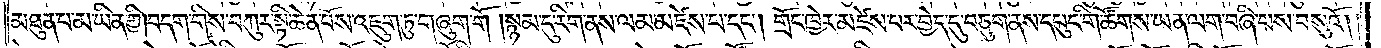མཐུན་པ་མ་ཡིན་གྱི།བདག་གིས་བཀུར་སྟི་ཆེན་པོས་འཇུག་ཏུ་གཞུག་གོ །སྙམ་དུ་རིག་ནས་ལམ་མཛེས་པ་དང༌། གྲོང་ཁྱེར་མཛེས་པར་བྱེད་དུ་བཅུག་ནས་དཔུང་གི་ཚོགས་ཡན་ལག་བཞི་པས་བསུའོ། །
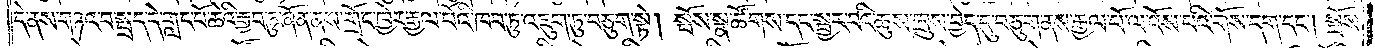དེ་ནས་གཉའ་བ་སྤྲད་དེ་གླང་པོ་ཆེའི་རྒྱབ་ཏུ་ཞོན་ནས་གྲོང་ཁྱེར་རྒྱལ་པོའི་ཁབ་ཏུ་འཇུག་ཏུ་བཅུག་སྟེ། སྤོས་སྣ་ཚོགས་དང་སྦྱར་བའི་ཆུས་ཁྲུས་བྱེད་དུ་བཅུག་ནས་རྒྱལ་པོ་ལ་འོས་པའི་གོས་དག་དང༌། སྤོས་
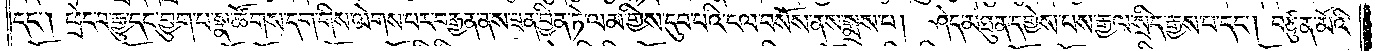དང༌། ཕྲེང་བ་རྒྱུ་དང་བྱུག་པ་སྣ་ཚོགས་དག་གིས་ལེགས་པར་བརྒྱན་ནས་ཟན་བྱིན་ཏེ་ལམ་གྱིས་དུབ་པའི་ངལ་བསོས་ནས་སྨྲས་པ། ཤེད་མཐུན་དགྱེས་པས་རྒྱལ་སྲིད་རྒྱས་པ་དང༌། བཙུན་མོའི་
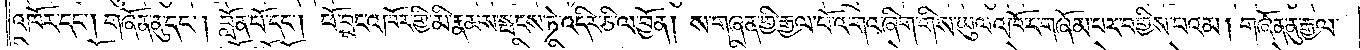འཁོར་དང༌། གཞོན་ནུ་དང༌། བློན་པོ་དང༌། ཕོ་བྲང་འཁོར་གྱི་མི་རྣམས་སྤངས་ཏེ་འདིར་ཅི་ལ་བྱོན། ས་གཞན་གྱི་རྒྱལ་པོ་འགའ་ཞིག་གིས་ཡུལ་འཁོར་གཞོམ་པར་བགྱིས་པའམ། གཞོན་ནུ་རྒྱལ་
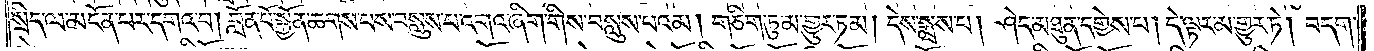སྲིད་ལ་མངོན་པར་དགའ་བ། བློན་པོ་སྐྱོན་ཆགས་པས་བསླུས་པ་འགའ་ཞིག་གིས་བསླུས་པའམ། གཅིག་ཏུ་མ་གྱུར་ཏམ། དེས་སྨྲས་པ། ཤེད་མཐུན་དགྱེས་པ། དེ་ལྟར་མ་གྱུར་ཏེ། བདག་
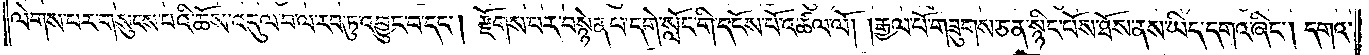ལེགས་པར་གསུངས་པའི་ཆོས་འདུལ་བ་ལ་རབ་ཏུ་འབྱུང་བ་དང༌། རྫོགས་པར་བསྙེན་པ་དགེ་སློང་གི་དངོས་པོ་འཚལ་ལོ། །རྒྱལ་པོ་གཟུགས་ཅན་སྙིང་པོས་ཐོས་ནས་ཡིད་དགའ་ཞིང༌། དགའ་
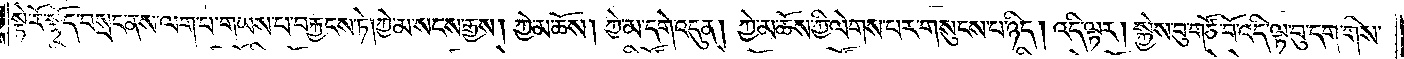སྟེ་རོ་སྟོད་བསྲང་ནས་ལག་པ་གཡས་པ་བརྐྱངས་ཏེ། ཀྱེ་མ་སངས་རྒྱས། ཀྱེ་མ་ཆོས། ཀྱེ་མ་དགེ་འདུན། ཀྱེ་མ་ཆོས་ཀྱི་ལེགས་པར་གསུངས་པ་ཉིད། འདི་ལྟར། སྐྱེས་བུ་གཙོ་བོ་འདི་ལྟ་བུ་དག་གིས་
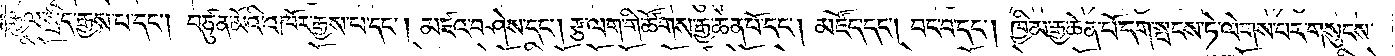རྒྱལ་སྲིད་རྒྱས་པ་དང༌། བཙུན་མོའི་འཁོར་རྒྱས་པ་དང༌། མཛའ་བཤེས་དང༌། རྩ་ལག་གི་ཚོགས་རྒྱ་ཆེན་པོ་དང༌། མཛོད་དང༌། བང་བ་དང༌། ཁྱིམ་རྒྱ་ཆེན་པོ་དག་སྤངས་ཏེ་ལེགས་པར་གསུངས་
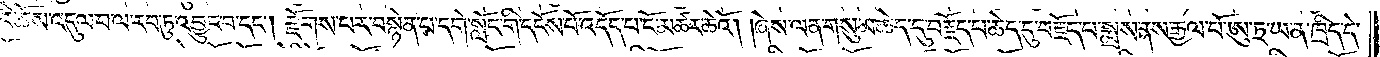འི་ཆོས་འདུལ་བ་ལ་རབ་ཏུ་འབྱུང་བ་དང༌། རྫོགས་པར་བསྙེན་པ་དགེ་སློང་གི་དངོས་པོ་འདོད་པ་ངོ་མཚར་ཆེའོ། །ཞེས་ལན་གསུམ་ཆེད་དུ་བརྗོད་པ་ཆེད་དུ་བརྗོད་པ་སྨྲས་ནས་རྒྱལ་པོ་ཨུ་ཏྲ་ཡ་ན་ཁྲིད་དེ་
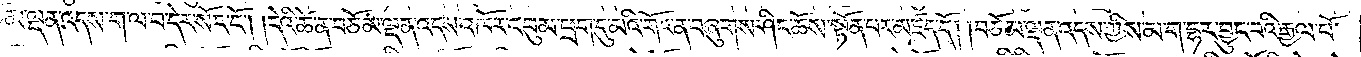མ་ལྡན་འདས་ག་ལ་བ་དེར་སོང་ངོ༌། །དེའི་ཚེ་ན་བཅོམ་ལྡན་འདས་འཁོར་འབུམ་ཕྲག་དུ་མའི་གོང་ན་བཞུགས་ཤིང་ཆོས་སྟོན་པར་མཛད་དོ། །བཅོམ་ལྡན་འདས་ཀྱིས་མ་ག་དྷར་བྱུང་བའི་རྒྱལ་པོ་
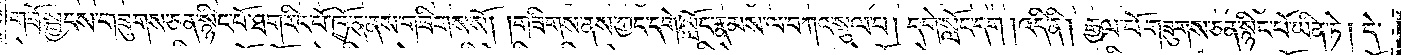གཟོ་སྦྱངས་གཟུགས་ཅན་སྙིང་པོ་ཐག་རིང་པོ་ཁོ་ན་ནས་གཟིགས་སོ། །གཟིགས་ནས་ཀྱང་དགེ་སློང་རྣམས་ལ་བཀའ་སྩལ་པ། དགེ་སློང་དག །འདི་ནི། རྒྱལ་པོ་གཟུགས་ཅན་སྙིང་པོ་ཡིན་ཏེ། དེ་
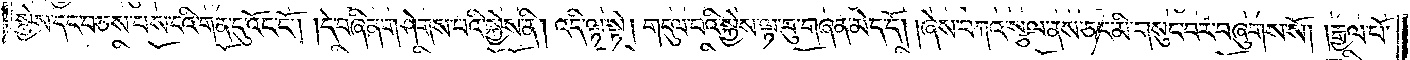སྐྱེས་དང་བཅས་པས་ངའི་གན་དུ་འོང་ངོ༌། །དེ་བཞིན་གཤེགས་པའི་སྐྱེས་ནི། འདི་ལྟ་སྟེ། གདུལ་བའི་སྐྱེས་ལྟ་བུ་གཞན་མེད་དོ། །ཞེས་བཀའ་སྩལ་ནས་ཅང་མི་གསུང་བར་བཞུགས་སོ། །རྒྱལ་པོ་
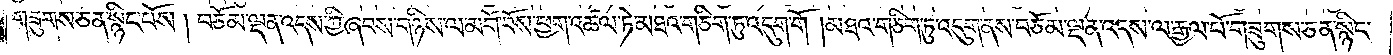གཟུགས་ཅན་སྙིང་པོས། བཅོམ་ལྡན་འདས་ཀྱི་ཞབས་གཉིས་ལ་མགོ་བོས་ཕྱག་འཚལ་ཏེ་མཐའ་གཅིག་ཏུ་འདུག་གོ །མཐའ་གཅིག་ཏུ་འདུག་ནས་བཅོམ་ལྡན་འདས་ལ་རྒྱལ་པོ་གཟུགས་ཅན་སྙིང་
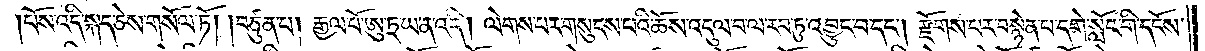།པོས་འདི་སྐད་ཅེས་གསོལ་ཏོ། །བཙུན་པ། རྒྱལ་པོ་ཨུ་ཏྲ་ཡ་ན་འདི། ལེགས་པར་གསུངས་པའི་ཆོས་འདུལ་བ་ལ་རབ་ཏུ་འབྱུང་བ་དང༌། རྫོགས་པར་བསྙེན་པ་དགེ་སློང་གི་དངོས་
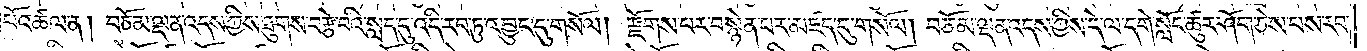པོ་འཚལ་ན། བཅོམ་ལྡན་འདས་ཀྱིས་ཐུགས་བརྩེ་བའི་སླད་དུ་འདི་རབ་ཏུ་འབྱུང་དུ་གསོལ། རྫོགས་པར་བསྙེན་པར་མཛད་དུ་གསོལ། བཅོམ་ལྡན་འདས་ཀྱིས་དེ་ལ་དགེ་སློང་ཚུར་ཤོག་ཅེས་པས་རབ་
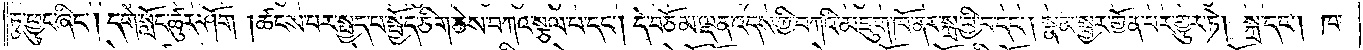ཏུ་ཕྱུང་ཞིང༌། དགེ་སློང་ཚུར་ཤོག །ཚངས་པར་སྤྱད་པ་སྤྱོད་ཅིག་ཅེས་བཀའ་སྩལ་པ་དང༌། དེ་བཅོམ་ལྡན་འདས་ཀྱི་བཀའི་མཇུག་ཁོ་ནར་སྐྲ་བྱི་བ་དང༌། སྣམ་སྦྱར་གྱོན་པར་གྱུར་ཏེ། སྐྲ་དང༌། ཁ་
